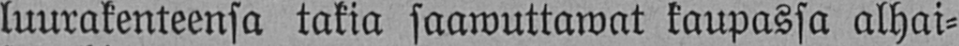luurakenteensa takia saawuttawat kaupassa alhai-
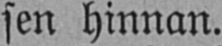sen hinnan.
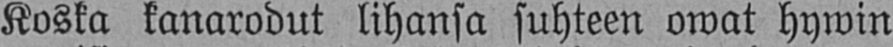Koska kanarodut lihansa suhteen owat hywin
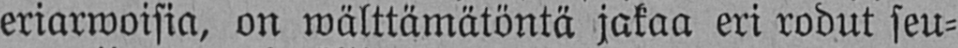eriarwoisia, on wälttämätöntä jakaa eri rodut seu-
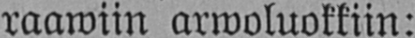raawiin arwoluokkiin:
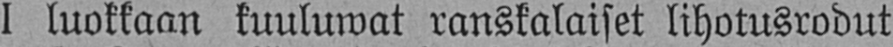I luokkaan kuuluwat ranskalaiset lihotusrodut
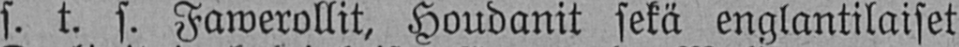s. t. s. Fawerollit, Houdanit sekä englantilaiset
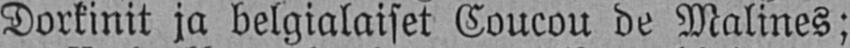Dorkinit ja belgialaiset Coucou de Malines;
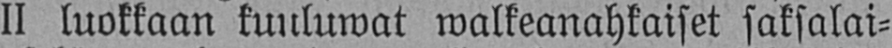II luokkaan kuuluwat walkeanahkaiset saksalai-
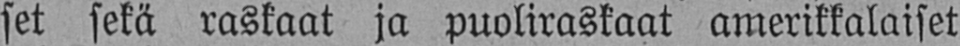set sekä raskaat ja puoliraskaat amerikkalaiset
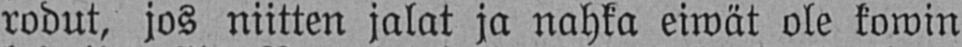rodut, jos niitten jalat ja nahka eiwät ole kowin
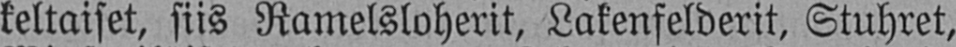keltaiset, siis Ramelsloherit, Lakenfelderit, Stuhret,
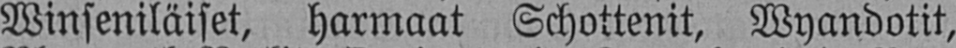Winseniläiset, harmaat Schottenit, Wyandotit,
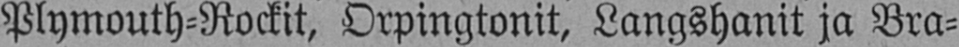Plymouth-Rockit, Orpingtonit, Langshanit ja Bra-
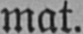mat.
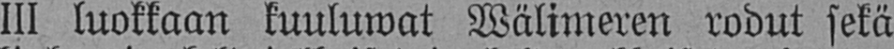III luokkaan kuuluwat Wälimeren rodut sekä
